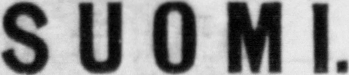SUOMI.
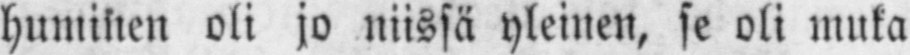huminen oli jo niissä yleinen, se oli muka
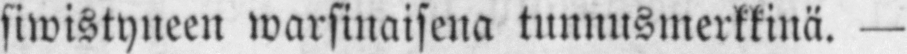siwistyneen warsinaisena tunnusmerkkinä. —
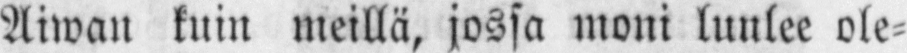aiwan kuin meillä, jossa moni luulee ole-
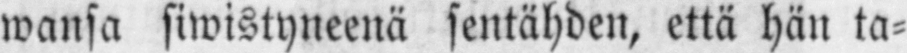wansa siwistyneenä sentähden, että hän ta-
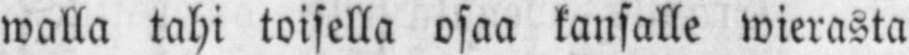walla tahi toisella osaa kansalle wierasta
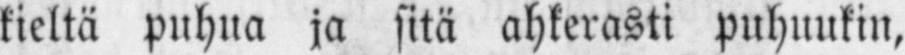kieltä puhua ja sitä ahkerasti puhuukin,
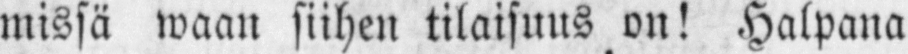missä waan siihen tilaisuus on! Halpana
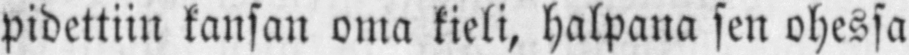pidettiin kansan oma kieli, halpana sen ohessa
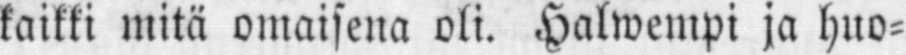kaikki mitä omaisena oli. Halwempi ja huo-
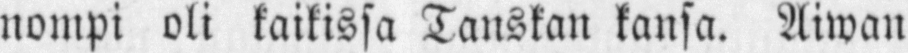nompi oli kaikissa Tanskan kansa. Aiwan
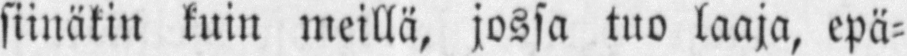siinäkin kuin meillä, jossa tuo laaja, epä-
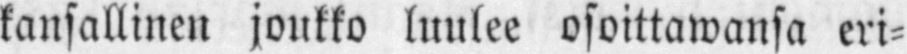kansallinen joukko luulee osoittawansa eri-
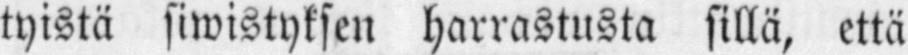tyistä siwistyksen harrastusta sillä, että
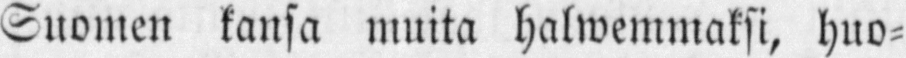Suomen kansa muita halwemmaksi, huo-
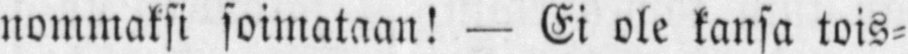nommaksi soimataan! — Ei ole kansa tois-
